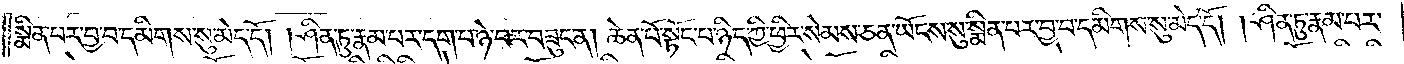སྨིན་པར་བྱ་བ་དམིགས་སུ་མེད་དོ། །ཤིན་ཏུ་རྣམ་པར་དག་པ་ཉེ་བར་བཟུང་ན། ཆེན་པོ་སྟོང་པ་ཉིད་ཀྱི་ཕྱིར་སེམས་ཅན་ཡོངས་སུ་སྨིན་པར་བྱ་བ་དམིགས་སུ་མེད་དོ། །ཤིན་ཏུ་རྣམ་པར་
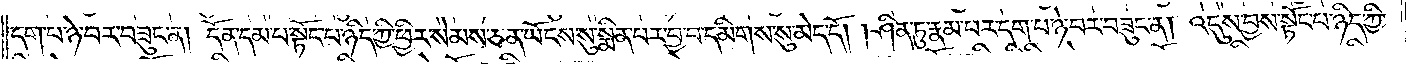དག་པ་ཉེ་བར་བཟུང་ན། དོན་དམ་པ་སྟོང་པ་ཉིད་ཀྱི་ཕྱིར་སེམས་ཅན་ཡོངས་སུ་སྨིན་པར་བྱ་བ་དམིགས་སུ་མེད་དོ། །ཤིན་ཏུ་རྣམ་པར་དག་པ་ཉེ་བར་བཟུང་ན། འདུས་བྱས་སྟོང་པ་ཉིད་ཀྱི་
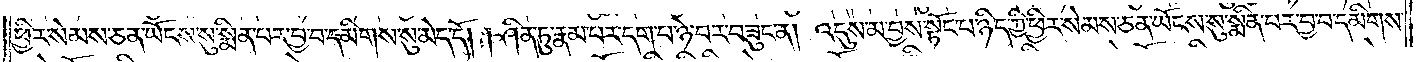ཕྱིར་སེམས་ཅན་ཡོངས་སུ་སྨིན་པར་བྱ་བ་དམིགས་སུ་མེད་དོ། །ཤིན་ཏུ་རྣམ་པར་དག་པ་ཉེ་བར་བཟུང་ན། འདུས་མ་བྱས་སྟོང་པ་ཉིད་ཀྱི་ཕྱིར་སེམས་ཅན་ཡོངས་སུ་སྨིན་པར་བྱ་བ་དམིགས་
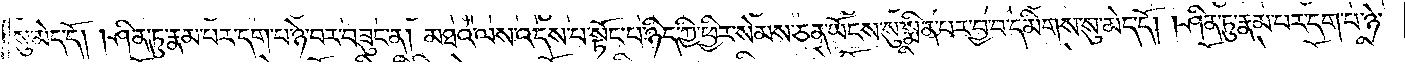སུ་མེད་དོ། །ཤིན་ཏུ་རྣམ་པར་དག་པ་ཉེ་བར་བཟུང་ན། མཐའ་ལས་འདས་པ་སྟོང་པ་ཉིད་ཀྱི་ཕྱིར་སེམས་ཅན་ཡོངས་སུ་སྨིན་པར་བྱ་བ་དམིགས་སུ་མེད་དོ། །ཤིན་ཏུ་རྣམ་པར་དག་པ་ཉེ་
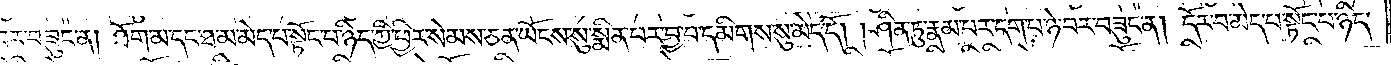བར་བཟུང་ན། ཐོག་མ་དང་ཐ་མ་མེད་པ་སྟོང་པ་ཉིད་ཀྱི་ཕྱིར་སེམས་ཅན་ཡོངས་སུ་སྨིན་པར་བྱ་བ་དམིགས་སུ་མེད་དོ། །ཤིན་ཏུ་རྣམ་པར་དག་པ་ཉེ་བར་བཟུང་ན། དོར་བ་མེད་པ་སྟོང་པ་ཉིད་
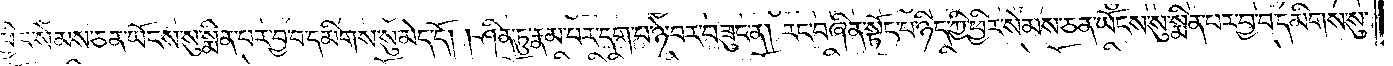ཀྱི་ཕྱིར་སེམས་ཅན་ཡོངས་སུ་སྨིན་པར་བྱ་བ་དམིགས་སུ་མེད་དོ། །ཤིན་ཏུ་རྣམ་པར་དག་པ་ཉེ་བར་བཟུང་ན། རང་བཞིན་སྟོང་པ་ཉིད་ཀྱི་ཕྱིར་སེམས་ཅན་ཡོངས་སུ་སྨིན་པར་བྱ་བ་དམིགས་སུ་
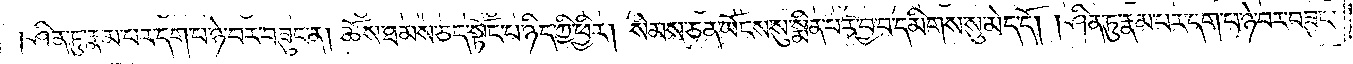མེད་དོ། །ཤིན་ཏུ་རྣམ་པར་དག་པ་ཉེ་བར་བཟུང་ན། ཆོས་ཐམས་ཅད་སྟོང་པ་ཉིད་ཀྱི་ཕྱིར། སེམས་ཅན་ཡོངས་སུ་སྨིན་པར་བྱ་བ་དམིགས་སུ་མེད་དོ། །ཤིན་ཏུ་རྣམ་པར་དག་པ་ཉེ་བར་བཟུང་
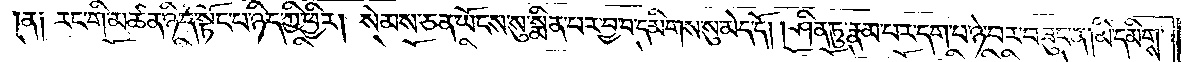ན༑ རང་གི་མཚན་ཉིད་སྟོང་པ་ཉིད་ཀྱི་ཕྱིར། སེམས་ཅན་ཡོངས་སུ་སྨིན་པར་བྱ་བ་དམིགས་སུ་མེད་དོ། །ཤིན་ཏུ་རྣམ་པར་དག་པ་ཉེ་བར་བཟུང་ན། མི་དམིགས་
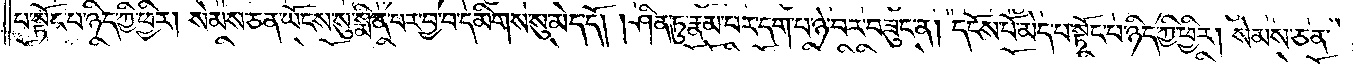པ་སྟོང་པ་ཉིད་ཀྱི་ཕྱིར། སེམས་ཅན་ཡོངས་སུ་སྨིན་པར་བྱ་བ་དམིགས་སུ་མེད་དོ། །ཤིན་ཏུ་རྣམ་པར་དག་པ་ཉེ་བར་བཟུང་ན། དངོས་པོ་མེད་པ་སྟོང་པ་ཉིད་ཀྱི་ཕྱིར། སེམས་ཅན་
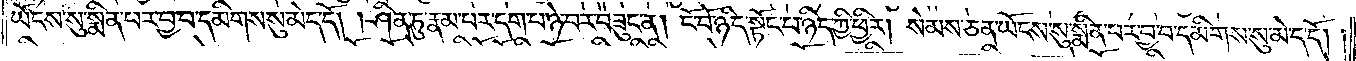ཡོངས་སུ་སྨིན་པར་བྱ་བ་དམིགས་སུ་མེད་དོ། །ཤིན་ཏུ་རྣམ་པར་དག་པ་ཉེ་བར་བཟུང་ན། ངོ་བོ་ཉིད་སྟོང་པ་ཉིད་ཀྱི་ཕྱིར། སེམས་ཅན་ཡོངས་སུ་སྨིན་པར་བྱ་བ་དམིགས་སུ་མེད་དོ། །
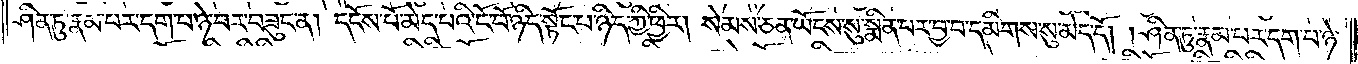ཤིན་ཏུ་རྣམ་པར་དག་པ་ཉེ་བར་བཟུང་ན། དངོས་པོ་མེད་པའི་ངོ་བོ་ཉིད་སྟོང་པ་ཉིད་ཀྱི་ཕྱིར། སེམས་ཅན་ཡོངས་སུ་སྨིན་པར་བྱ་བ་དམིགས་སུ་མེད་དོ། །ཤིན་ཏུ་རྣམ་པར་དག་པ་ཉེ་
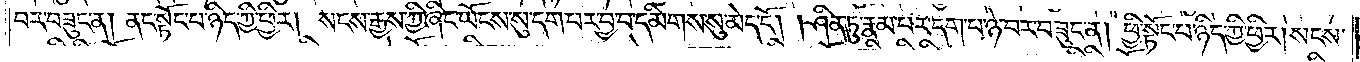བར་བཟུང་ན། ནང་སྟོང་པ་ཉིད་ཀྱི་ཕྱིར། སངས་རྒྱས་ཀྱི་ཞིང་ཡོངས་སུ་དག་པར་བྱ་བ་དམིགས་སུ་མེད་དོ། །ཤིན་ཏུ་རྣམ་པར་དག་པ་ཉེ་བར་བཟུང་ན། ཕྱི་སྟོང་པ་ཉིད་ཀྱི་ཕྱིར། སངས་
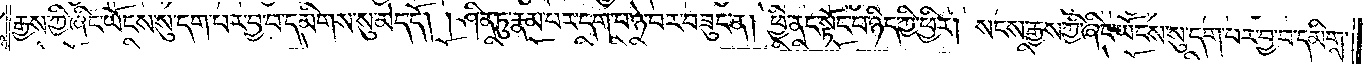རྒྱས་ཀྱི་ཞིང་ཡོངས་སུ་དག་པར་བྱ་བ་དམིགས་སུ་མེད་དོ། །ཤིན་ཏུ་རྣམ་པར་དག་པ་ཉེ་བར་བཟུང་ན། ཕྱི་ནང་སྟོང་པ་ཉིད་ཀྱི་ཕྱིར། སངས་རྒྱས་ཀྱི་ཞིང་ཡོངས་སུ་དག་པར་བྱ་བ་དམིགས་
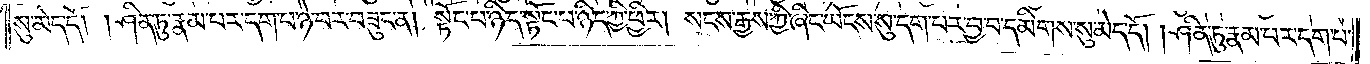སུ་མེད་དོ། །ཤིན་ཏུ་རྣམ་པར་དག་པ་ཉེ་བར་བཟུང་ན། སྟོང་པ་ཉིད་སྟོང་པ་ཉིད་ཀྱི་ཕྱིར། སངས་རྒྱས་ཀྱི་ཞིང་ཡོངས་སུ་དག་པར་བྱ་བ་དམིགས་སུ་མེད་དོ། །ཤིན་ཏུ་རྣམ་པར་དག་པ་
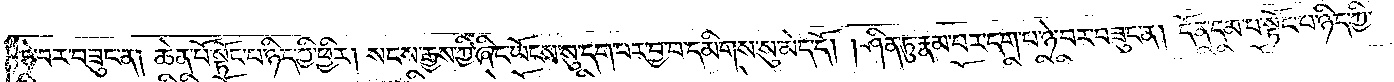ཉེ་བར་བཟུང་ན། ཆེན་པོ་སྟོང་པ་ཉིད་ཀྱི་ཕྱིར། སངས་རྒྱས་ཀྱི་ཞིང་ཡོངས་སུ་དག་པར་བྱ་བ་དམིགས་སུ་མེད་དོ། །ཤིན་ཏུ་རྣམ་པར་དག་པ་ཉེ་བར་བཟུང་ན། དོན་དམ་པ་སྟོང་པ་ཉིད་ཀྱི་
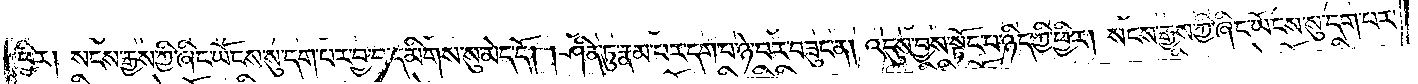ཕྱིར། སངས་རྒྱས་ཀྱི་ཞིང་ཡོངས་སུ་དག་པར་བྱ་བ་དམིགས་སུ་མེད་དོ། །ཤིན་ཏུ་རྣམ་པར་དག་པ་ཉེ་བར་བཟུང་ན། འདུས་བྱས་སྟོང་པ་ཉིད་ཀྱི་ཕྱིར། སངས་རྒྱས་ཀྱི་ཞིང་ཡོངས་སུ་དག་པར་
